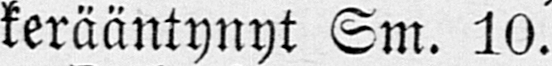kerääntynyt Sm. 10.
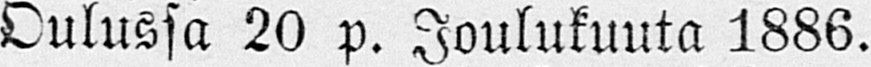Oulussa 20 p. Joulukuuta 1886.
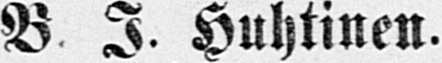B. J. Huhtinen.
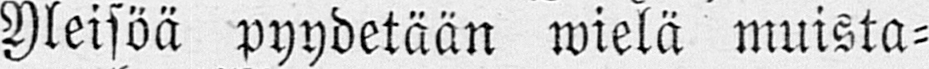Yleisöä pyydetään wielä muista-
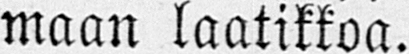maan laatikkoa.
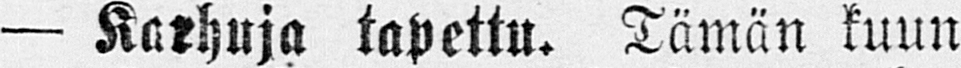— Karhuja tapettu. Tämän kuun
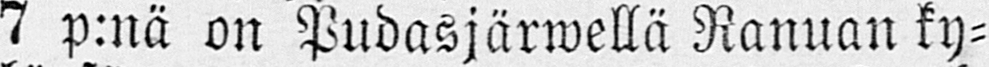7 p:nä on Pudasjärwellä Ranuan ky-
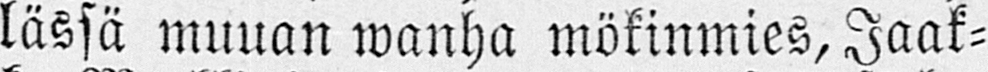lässä muuan wanha mökinmies, Jaak-
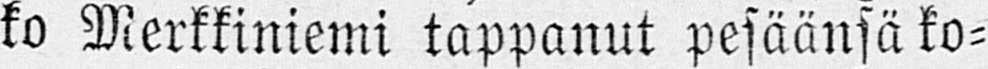ko Merkkiniemi tappanut pesäänsä ko-
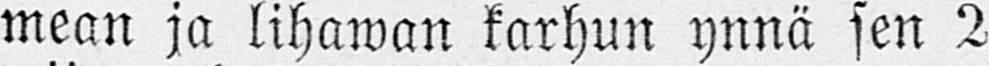mean ja lihawan karhun ynnä sen 2
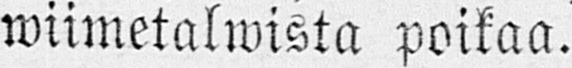wiimetalwista poikaa.
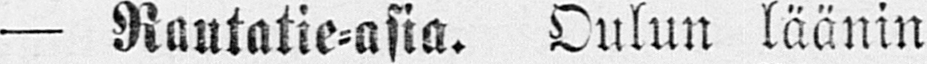— Rautatie-asia. Oulun läänin
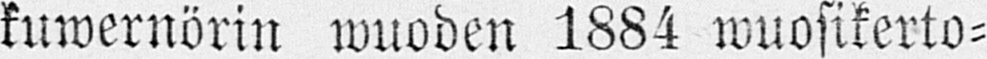kuwernörin wuoden 1884 wuosikerto-
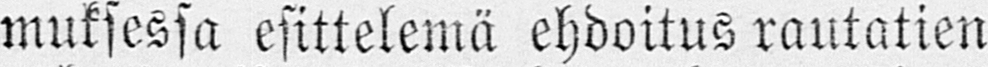muksessa esitteleimä ehdoitus rautatien
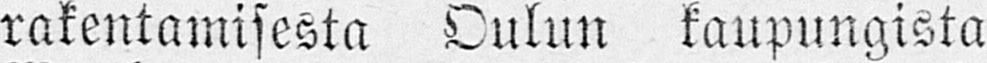rakentamisesta Oulun kaulpungista
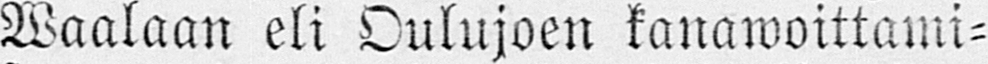Waalaan eli Oulujoen kanawoittami-
